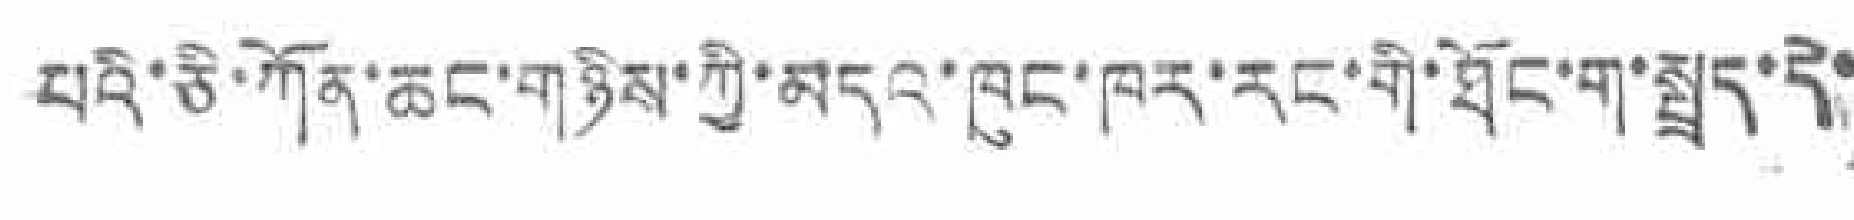པའི་ཅི་ཀོན་ཆང་གཉིས་ཀྱི་མདའ་ཁུང་ཁར་རང་གི་ཐོང་ག་སྤྲད་དེ་
